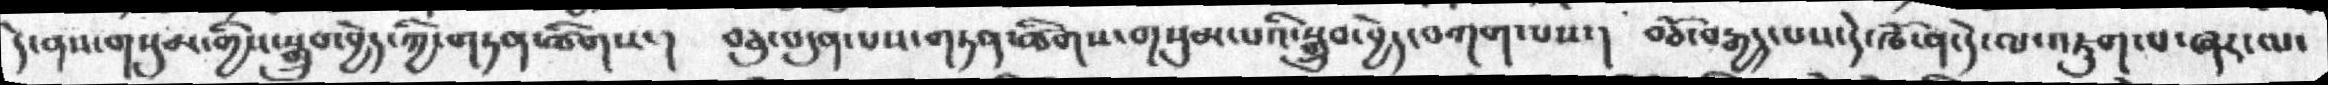དེ་ནས་གསུམ་གྱིས་སྒྲུབ་བྱེད་ཀྱི་གཏན་ཚིགས་།    བཅུ་བདུན་པས་གཏན་ཚིགས་གསུམ་པའི་སྒྲུབ་བྱེད་བགག་པས་།   བཅོ་བརྒྱད་པས་དེ་ཁོ་ན་དེ་ལ་འཇུག་པ་ཞར་ལ་
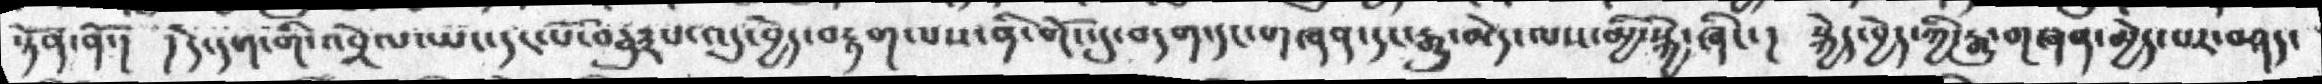ྟོན་ནོ་། དེ་དག་གི་འབྲེལ་ཡང་དང་པོ་བཅུ༣པ་འདུ་བྱེད་བརྟག་པས་ནི་གོང་དུ་བདག་དང་གཞན་དང་རྒྱུ་མེད་ལས་མྱི་སྐྱེ་ཞིང་།  སྐྱེད་བྱེད་ཀྱི་རྒྱུ་གཞན་མྱེད་པར་བཤད་
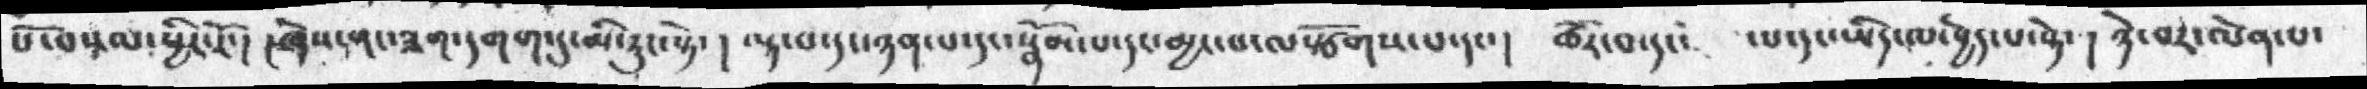པོ་བསམ་ཕྱིར་རོ་།  །ཞེས་གང་ཟག་དགག་དུ་མི་རུང་སྟེ་།  ལྟ་བ་དང་ཉན་པ་དང་སྣོམ་པ་དང་མྱང་པ་ལསྩོགས་པ་དང་།  ཚོར་བ་དང་   ་པ་དང་ཡིད་ལ་བྱེད་པ་སྟེ་། ཉེ་བར་ལེན་པ་
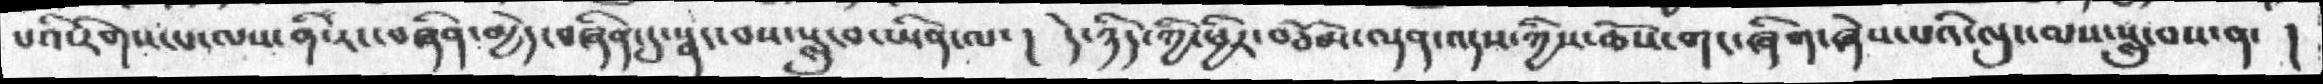པའི་རིགས་པ་ལས་ནི་རང་བཞིན་མྱེད་བཞིན་དུ་སྣང་བས་སླུ་བ་ཡིན་ལ་།  དེ་ཉིད་ཀྱི་ཕྱིར་བཅོམ་ལྡན་འདས་ཀྱིས་ཆོས་གང་ཞིག་ཞེས་པའི་ལུང་ལས་སླུ་བས་ན་ །
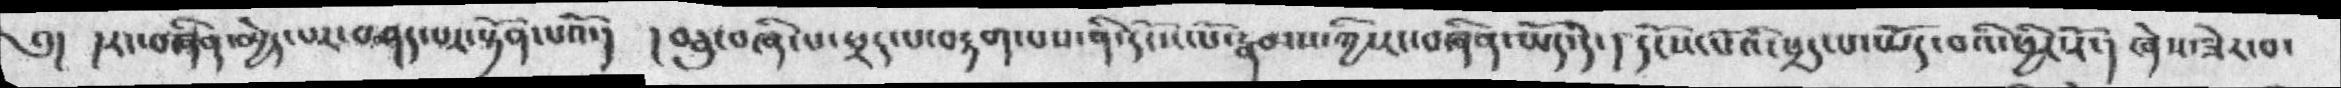༅།  །རང་བཞིན་མྱེད་པར་བཤད་པར་སྟོན་པའོ་།  །བཅུ་བཞི་པ་ཕྲད་པ་བརྟག་པས་ནི་དངོས་པོ་རྣམས་ཀྱི་རང་བཞིན་ཡོད་དེ་། དངོས་པོའི་ཕྲད་པ་ཡོད་བའི་ཕྱིར་རོ་། ཞེས་ཟེར་བ་
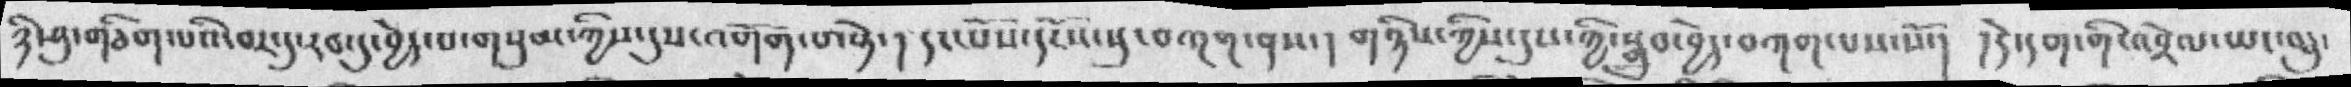ཉི་ཤུ་གཅིག་པའི་བར་དུ་རབ་དུ་བྱེད་པ་གསུམ་ཀྱིས་དུས་འགོག་པ་སྟེ་།  དང་པོ་དངོས་སུ་བཀག་ནས་། གཉིས་ཀྱིས་དུས་ཀྱི་སྒྲུབ་བྱེད་བཀག་པས་སོ་། །དེ་དག་གི་འབྲེལ་ཡང་བཅུ་
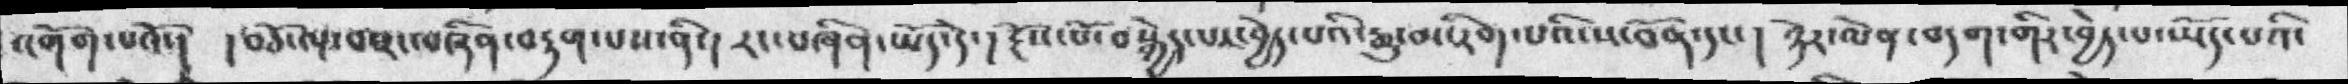འགོག་པའོ་།  །བཅོ་ལྔ་བ་རང་བཞིན་བརྟག་པས་ནི་། རང་བཞིན་ཡོད་དེ་། རྔོས་པོ་བསྐྱེད་པར་བྱེད་པའི་རྒྱུ་མ་རིག་པའི་ས་བོན་དང་། ཉེར་ལེན་བདག་གིར་བྱེད་པ་ཡོད་པའི་
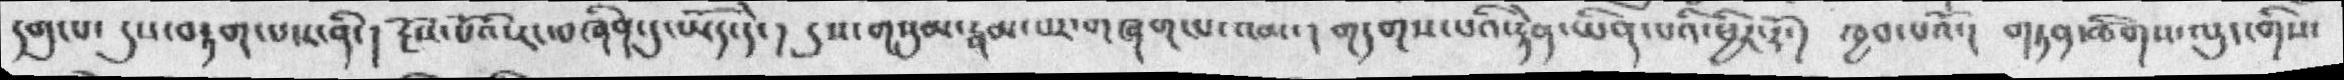དགུ་པ་ དུས་བརྟག་པས་ནི་། རྔོས་པོའི་རང་བཞིན་དུ་ཡོད་དེ་། དུས་གསུམ་རྣམ་པར་གཞག་པ་འམ་། གདགས་པའི་རྟེན་ཡིན་པའི་ཕྱིར་རོ་། ཁྱབ་པའོ་། གཏན་ཚིགས་ལུང་གིས་
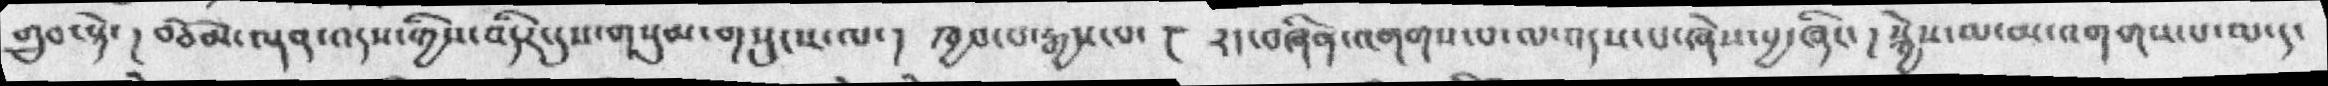གྲུབ་སྟེ་། བཅོམ་ལྡན་འདས་ཀྱིས་འདིར་དུས་གསུམ་གསུངས་ལ་། ཁྱབ་པ་རྒྱས་པ་ ། རང་བཞིན་འགགས་པ་ལ་འདས་པ་ཞེས་བྱ་ཞིང་། སྐྱེས་ལ་མ་འགགས་པ་ལ་ད་
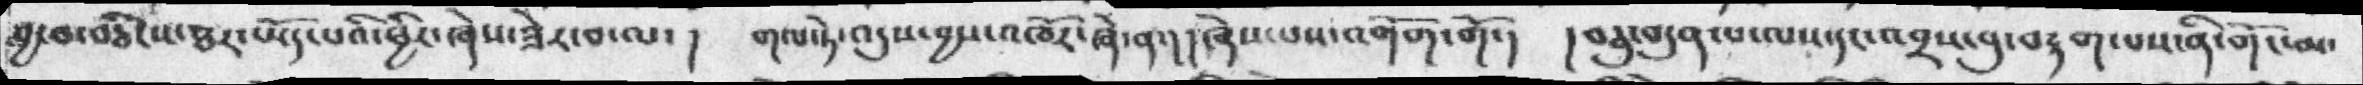བྱ་བ་བཅིངས་ཐར་ཡོད་པའི་ཕྱིར་ཞེས་ཟེར་བ་ལ་། གལ་ཏེ་འདུས་བྱས་འཁོར་ཞེ་ན་། །ཞེས་པས་འགོག་གོ་།. །བཅུ་བདུན་པ་ལས་དང་འབྲས་བུ་བརྟག་པས་ནི་གོང་མ་
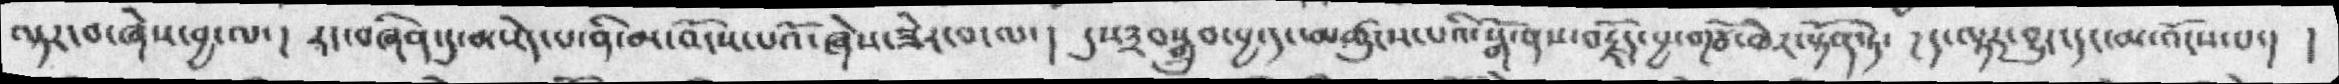ལྟར་བ་ཞེས་བྱ་ལ་། རང་བཞིན་དུ་མ་འོངས་པ་ནི་མ་འོངས་པའོ་ཞེས་ཟེར་བ་ལ་། དུས༣བསྒྲུབ་བྱ་དང་མཚུངས་པའི་སྒོ་ནས་བརྗོད་བྱ་གཙོ་ཆེར་སྟོན་ཏེ་། ད་ལྟར་བྱུང་དང་མ་འོངས་པ་། །
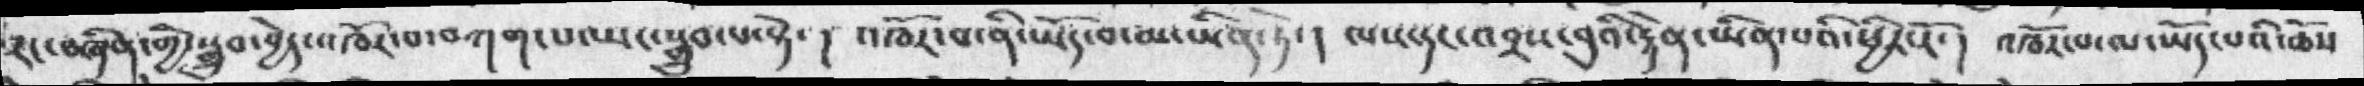རང་བཞིན་གྱི་སྒྲུབ་བྱེད་འཁོར་བ་བཀག་པ་ཡང་སྒྲུབ་པ་སྟེ་། འཁོར་བ་ནི་ཡོད་བ་མ་ཡིན་ཏེ་། ལས་དང་འབྲས་བུའི་རྟེན་ཡིན་པའི་ཕྱིར་རོ་། འཁོར་བ་ལ་ཡོད་པའི་ཆོས
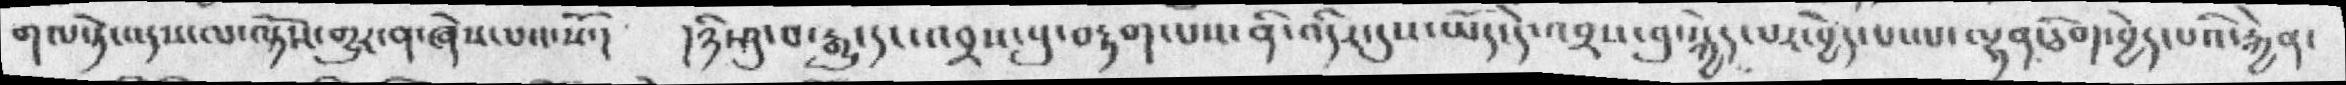གལ་ཏེ་འདས་ལ་ལྟོས་གྱུར་ན་ཞེས་པས་སོ་།  ཉི་ཤུ་བ་རྒྱུ་དང་འབྲས་བུ་བརྟག་པས་ནི་འདིར་དུས་ཡོད་དེ་འབྲས་བུ་སྐྱེད་པར་བྱེད་པ་ལ་ལྷན་ཅིག་བྱེད་པའི་རྐྱེན་
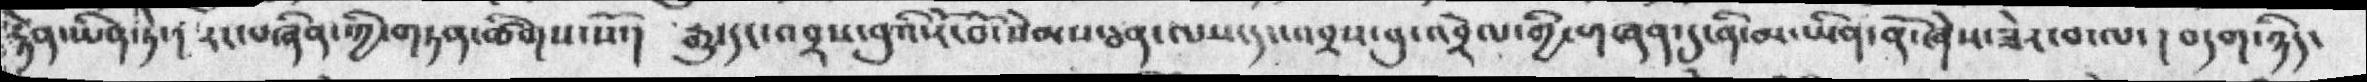རྟེན་ཡིན་ཏེ་། རང་བཞིན་ཀྱི་གཏན་ཚིགས་སོ་། རྒྱུ་དང་འབྲས་བུའི་ངོ་བོ་སེམས་ཅན་ལས་དང་འབྲས་བུ་འབྲེལ་གྱི་གཞན་དུ་ནི་མ་ཡིན་ནོ་ཞེས་ཟེར་བ་ལ་། བདག་ཉིད་
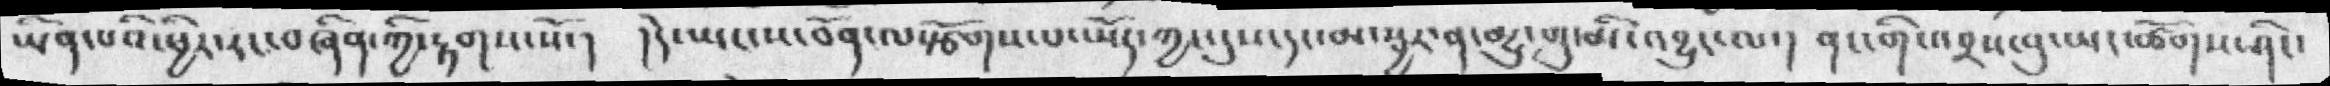ཡིན་པའི་ཕྱིར་རང་བཞིན་ཀྱི་རྟགས་སོ་།  །དེ་ཡང་ས་བོན་ལསྩོགས་པ་ཡོད་ཀྱང་དུས་དང་མ་སྦྱར་ན་མྱུ་གུ་མི་འབྱུང་ལ་།  ནང་གི་འབྲས་བུ་ཡང་ཚོགས་ཤིང་
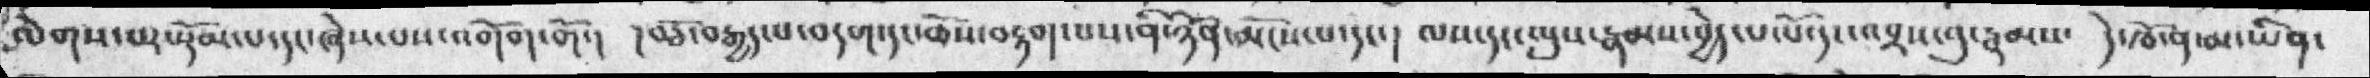ལེགས་པར་སྡོམ་པ་དང་ཞེས་པས་འགོག་གོ་།  །བཅོ་བརྒྱད་པ་བདག་དང་ཆོས་བརྟག་པས་ནི་ཉོན་མོངས་པ་དང་།  ལས་དང་ལུས་རྣམས་བྱེད་པ་པོ་དང་འབྲས་བུ་རྣམས་  དེ་ཁོ་ན་མ་ཡིན་
